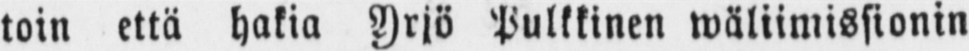toin että hakia Yrjö Pulkkinen wäliimissionin
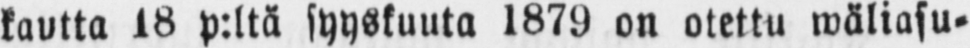kautta 18 p:ltä syyskuuta 1870 on otettu wäliasu-
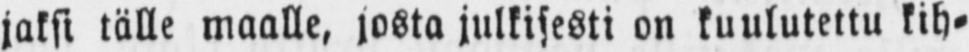jaksi tälle maalle, josta julkisesti on kuulutettu kih-
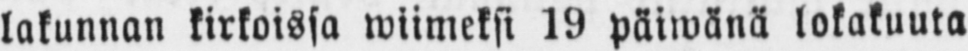lakunnan kirkoissa wiimeksi 19 päiwänä lokakuuta
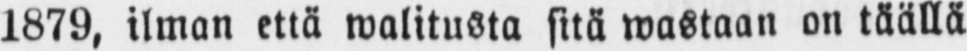1879, ilman että walitusta sitä wastaan on täällä
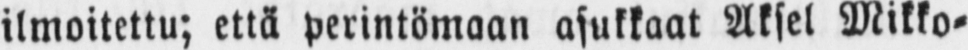ilmoitettu; että perintömaan asukkaat Aksel Mikko-
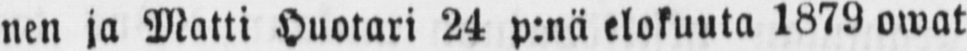nen ja Matti Huotari 24 p:nä elokuuta 1879 owat
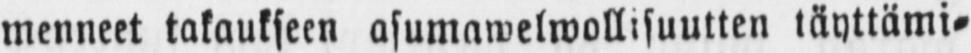menneet takaukseen asumawelwollisuutten täyttämi-
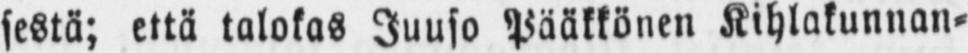sestä; että talokas Juuso Pääkkönen Kihlakunnan-
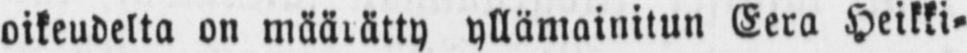oikeudelta on määrätty yllämainitun Eera Heikki-
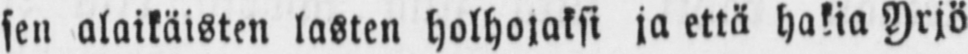sen alaikäisten lasten holhojaksi ja että hakia Yrjö
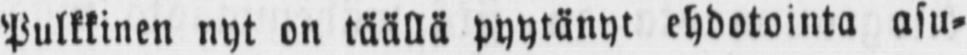Pulkkinen nyt on täällä pyytänyt ehdotointa asu-
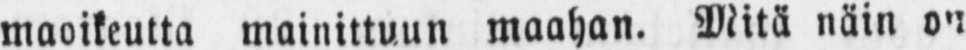maoikeutta mainittuun maahan. Mitä näin on
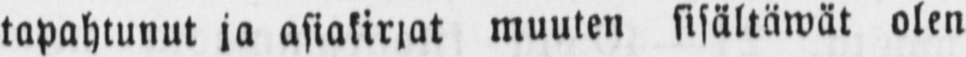tapahtunut ja asiakiriat muuten sisältäwät olen
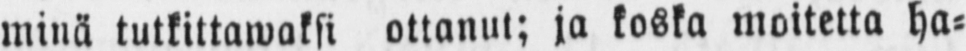minä tutkittawaksi ottanut; ja koska moitetta ha-
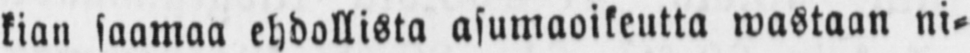kian saamaa ehdollista asumaoikeutta wastaan ni-
